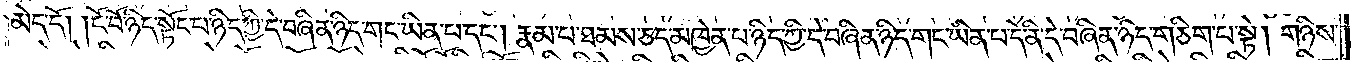མེད་དོ། །ངོ་བོ་ཉིད་སྟོང་པ་ཉིད་ཀྱི་དེ་བཞིན་ཉིད་གང་ཡིན་པ་དང༌། རྣམ་པ་ཐམས་ཅད་མཁྱེན་པ་ཉིད་ཀྱི་དེ་བཞིན་ཉིད་གང་ཡིན་པ་དེ་ནི་དེ་བཞིན་ཉིད་གཅིག་པ་སྟེ། གཉིས་
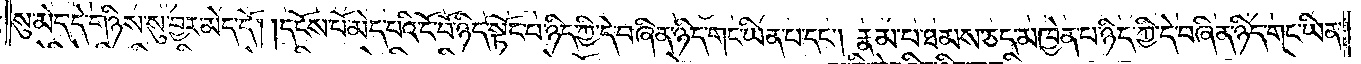སུ་མེད་ཅིང་གཉིས་སུ་བྱར་མེད་དོ། །དངོས་པོ་མེད་པའི་ངོ་བོ་ཉིད་སྟོང་པ་ཉིད་ཀྱི་དེ་བཞིན་ཉིད་གང་ཡིན་པ་དང༌། རྣམ་པ་ཐམས་ཅད་མཁྱེན་པ་ཉིད་ཀྱི་དེ་བཞིན་ཉིད་གང་ཡིན་
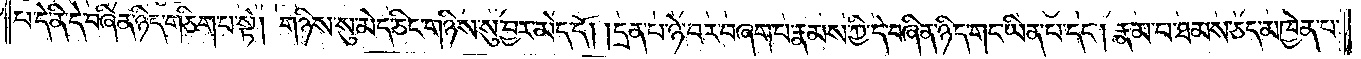པ་དེ་ནི་དེ་བཞིན་ཉིད་གཅིག་པ་སྟེ། གཉིས་སུ་མེད་ཅིང་གཉིས་སུ་བྱར་མེད་དོ། །དྲན་པ་ཉེ་བར་བཞག་པ་རྣམས་ཀྱི་དེ་བཞིན་ཉིད་གང་ཡིན་པ་དང༌། རྣམ་པ་ཐམས་ཅད་མཁྱེན་པ་
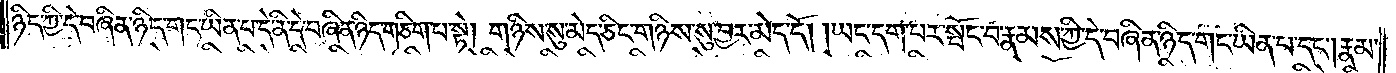ཉིད་ཀྱི་དེ་བཞིན་ཉིད་གང་ཡིན་པ་དེ་ནི་དེ་བཞིན་ཉིད་གཅིག་པ་སྟེ། གཉིས་སུ་མེད་ཅིང་གཉིས་སུ་བྱར་མེད་དོ། །ཡང་དག་པར་སྤོང་བ་རྣམས་ཀྱི་དེ་བཞིན་ཉིད་གང་ཡིན་པ་དང༌། རྣམ་
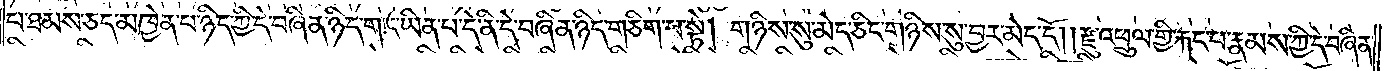པ་ཐམས་ཅད་མཁྱེན་པ་ཉིད་ཀྱི་དེ་བཞིན་ཉིད་གང་ཡིན་པ་དེ་ནི་དེ་བཞིན་ཉིད་གཅིག་པ་སྟེ། གཉིས་སུ་མེད་ཅིང་གཉིས་སུ་བྱར་མེད་དོ། །རྫུ་འཕྲུལ་གྱི་རྐང་པ་རྣམས་ཀྱི་དེ་བཞིན་
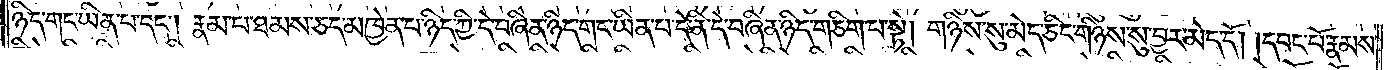ཉིད་གང་ཡིན་པ་དང༌། རྣམ་པ་ཐམས་ཅད་མཁྱེན་པ་ཉིད་ཀྱི་དེ་བཞིན་ཉིད་གང་ཡིན་པ་དེ་ན་དེ་བཞིན་ཉིད་གཅིག་པ་སྟེ། གཉིས་སུ་མེད་ཅིང་གཉིས་སུ་བྱར་མེད་དོ། །དབང་པོ་རྣམས་
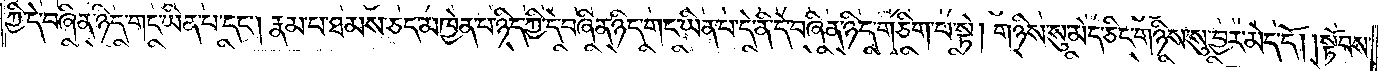ཀྱི་དེ་བཞིན་ཉིད་གང་ཡིན་པ་དང༌། རྣམ་པ་ཐམས་ཅད་མཁྱེན་པ་ཉིད་ཀྱི་དེ་བཞིན་ཉིད་གང་ཡིན་པ་དེ་ནི་དེ་བཞིན་ཉིད་གཅིག་པ་སྟེ། གཉིས་སུ་མེད་ཅིང་གཉིས་སུ་བྱར་མེད་དོ། །སྟོབས་
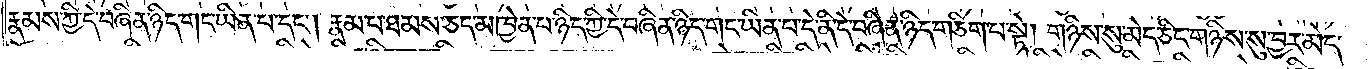རྣམས་ཀྱི་དེ་བཞིན་ཉིད་གང་ཡིན་པ་དང༌། རྣམ་པ་ཐམས་ཅད་མཁྱེན་པ་ཉིད་ཀྱི་དེ་བཞིན་ཉིད་གང་ཡིན་པ་དེ་ནི་དེ་བཞིན་ཉིད་གཅིག་པ་སྟེ། གཉིས་སུ་མེད་ཅིང་གཉིས་སུ་བྱར་མེད་
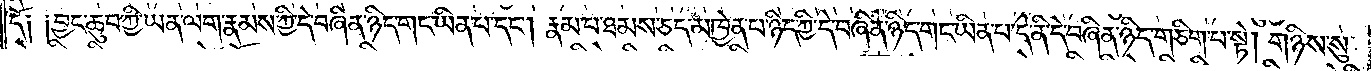དོ༑ ༑བྱང་ཆུབ་ཀྱི་ཡན་ལག་རྣམས་ཀྱི་དེ་བཞིན་ཉིད་གང་ཡིན་པ་དང༌། རྣམ་པ་ཐམས་ཅད་མཁྱེན་ཨ་ཉིད་ཀྱི་དེ་བཞིན་ཉིད་གང་ཡིན་པ་དེ་ནི་དེ་བཞིན་ཉིད་གཅིག་པ་སྟེ། གཉིས་སུ་
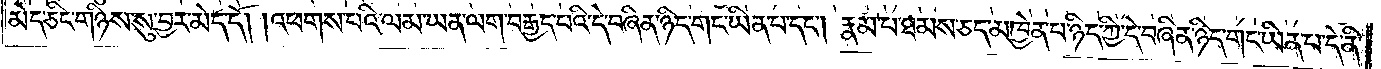མེད་ཅིང་གཉིས་སུ་བྱར་མེད་དོ། །འཕགས་པའི་ལམ་ཡན་ལག་བརྒྱད་པའི་དེ་བཞིན་ཉིད་གང་ཡིན་པ་དང༌། རྣམ་པ་ཐམས་ཅད་མཁྱེན་པ་ཉིད་ཀྱི་དེ་བཞིན་ཉིད་གང་ཡིན་པ་དེ་ནི་
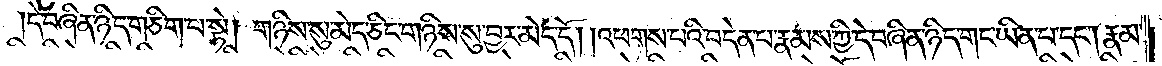དེ་བཞིན་ཉིད་གཅིག་པ་སྟེ། གཉིས་སུ་མེད་ཅིང་གཉིས་སུ་བྱར་མེད་དོ། །འཕགས་པའི་བདེན་པ་རྣམས་ཀྱི་དེ་བཞིན་ཉིད་གང་ཡིན་པ་དང༌། རྣམ་
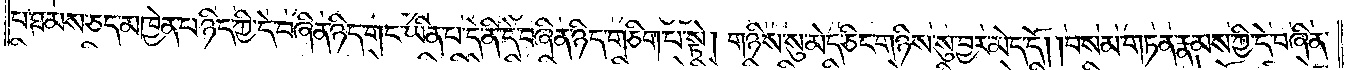པ་ཐམས་ཅད་མཁྱེན་པ་ཉིད་ཀྱི་དེ་བཞིན་ཉིད་གང་ཡིན་པ་དེ་ནི་དེ་བཞིན་ཉིད་གཅིག་པ་སྟེ། གཉིས་སུ་མེད་ཅིང་གཉིས་སུ་བྱར་མེད་དོ། །བསམ་གཏན་རྣམས་ཀྱི་དེ་བཞིན་
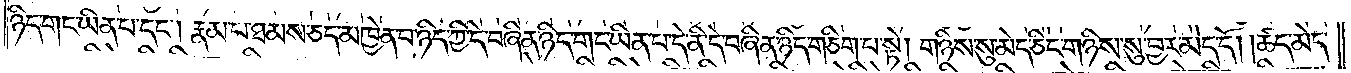ཉིད་གང་ཡིན་པ་དང༌། རྣམ་པ་ཐམས་ཅད་མཁྱེན་པ་ཉིད་ཀྱི་དེ་བཞིན་ཉིད་གང་ཡིན་པ་དེ་ནི་དེ་བཞིན་ཉིད་གཅིག་པ་སྟེ། གཉིས་སུ་མེད་ཅིང་གཉིས་སུ་བྱར་མེད་དོ། །ཚད་མེད་
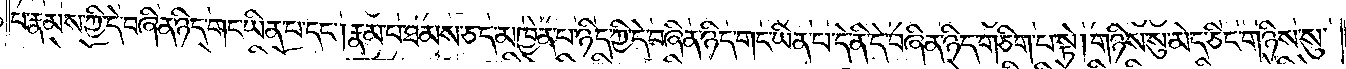པ་རྣམས་ཀྱི་དེ་བཞིན་ཉིད་གང་ཡིན་པ་དང༌། རྣམ་པ་ཐམས་ཅད་མཁྱེན་པ་ཉིད་ཀྱི་དེ་བཞིན་ཉིད་གང་ཡིན་པ་དེ་ནི་དེ་བཞིན་ཉིད་གཅིག་པ་སྟེ། གཉིས་སུ་མེད་ཅིང་གཉིས་སུ་
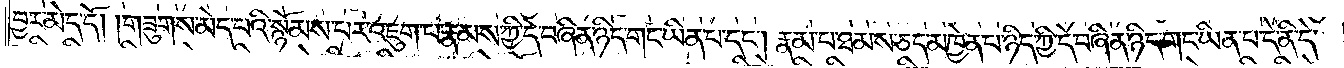བྱར་མེད་དོ། །གཟུགས་མེད་པའི་སྙོམས་པར་འཇུག་པ་རྣམས་ཀྱི་དེ་བཞིན་ཉིད་གང་ཡིན་པ་དང༌། རྣམ་པ་ཐམས་ཅད་མཁྱེན་པ་ཉིད་ཀྱི་དེ་བཞིན་ཉིད་གང་ཡིན་པ་དེ་ནི་དེ་
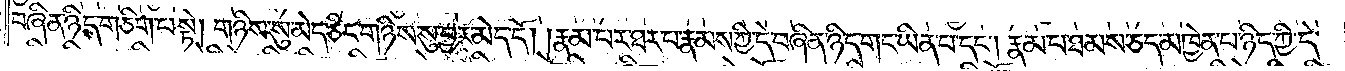བཞིན་ཉིད་གཅིག་པ་སྟེ། གཉིས་སུ་མེད་ཅིང་གཉིས་སུ་བྱར་མེད་དོ། །རྣམ་པར་ཐར་པ་རྣམས་ཀྱི་དེ་བཞིན་ཉིད་གང་ཡིན་པ་དང༌། རྣམ་པ་ཐམས་ཅད་མཁྱེན་པ་ཉིད་ཀྱི་དེ་
